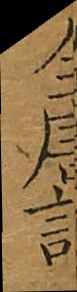全唐詩
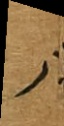八
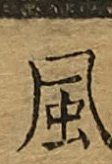風
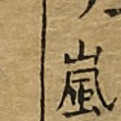嵐
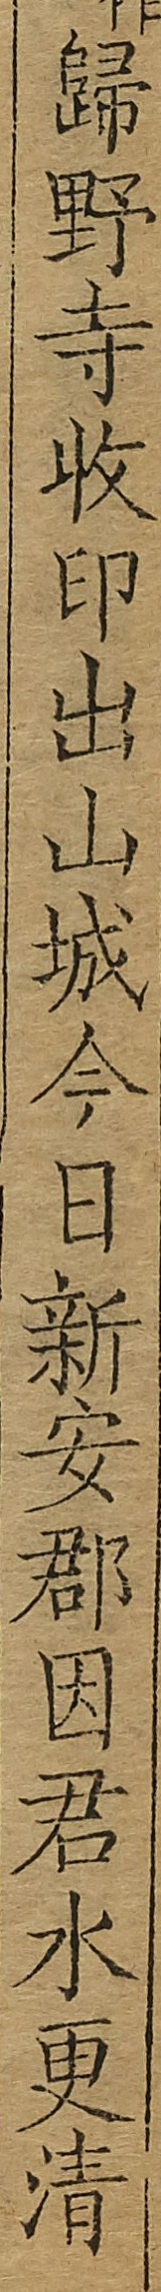歸野寺收印出山城今日新安郡因君水更清
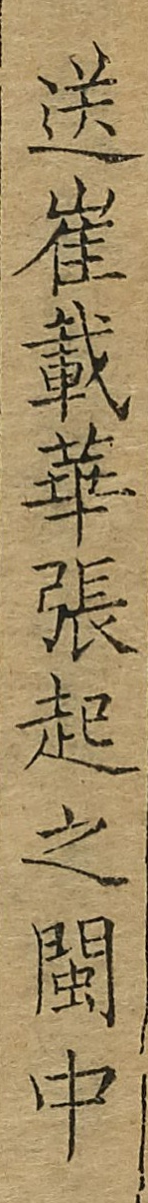送崔載華張起之閩中
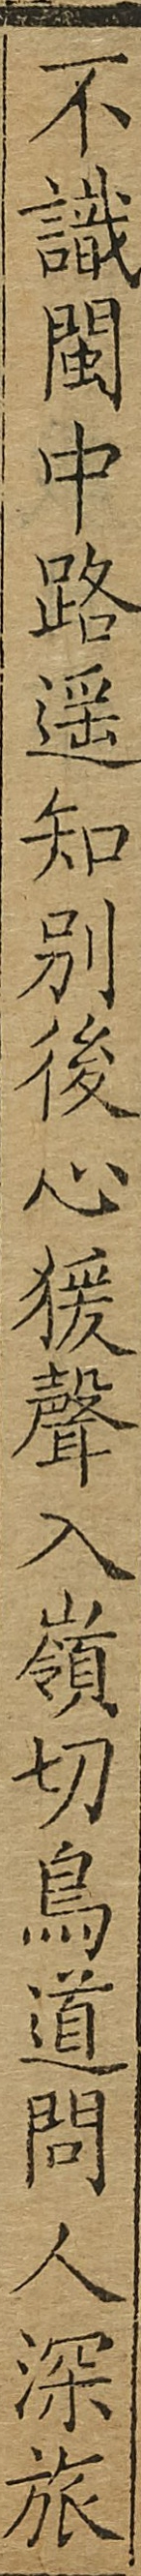不識閩中路遙知別後心猨聲入嶺切鳥道問人深旅
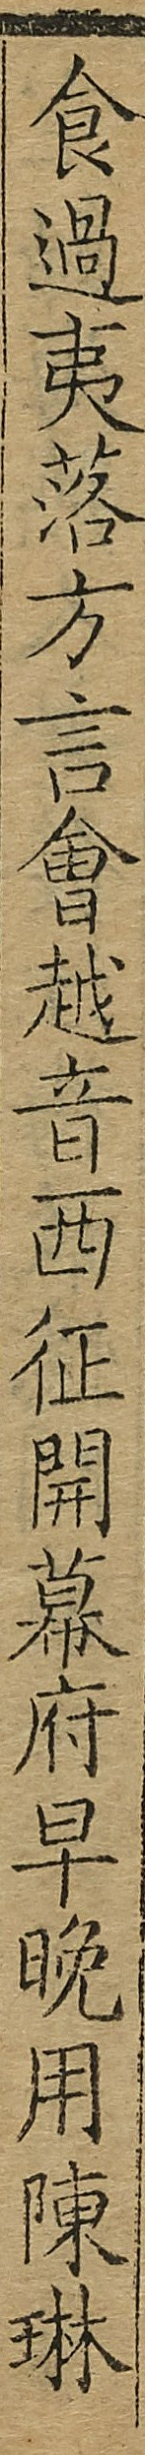食過夷落方言會越音西征開幕府早晚用陳琳
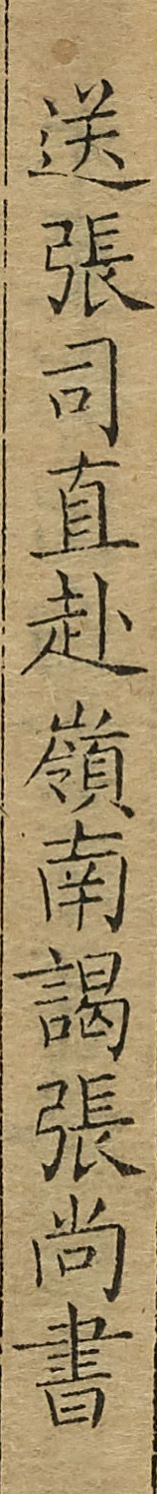送張司直赴嶺南謁張尚書
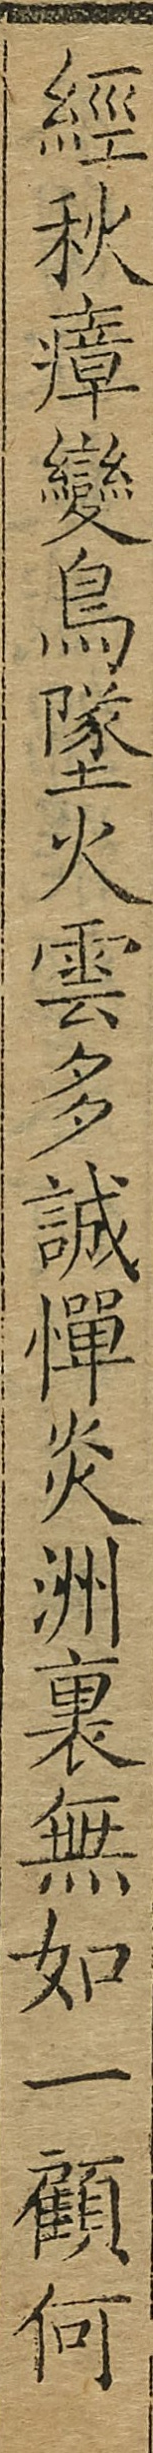經秋瘴變鳥墜火雲多誠憚炎洲裏無如一顧何
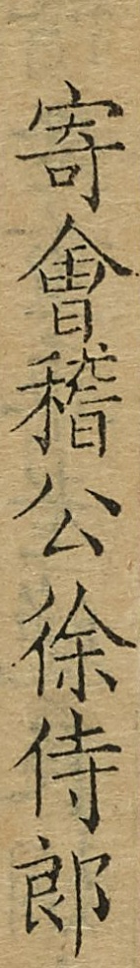寄會稽公徐侍郎
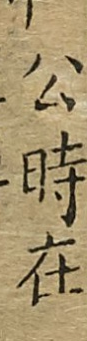公時在
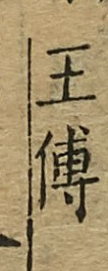王傅
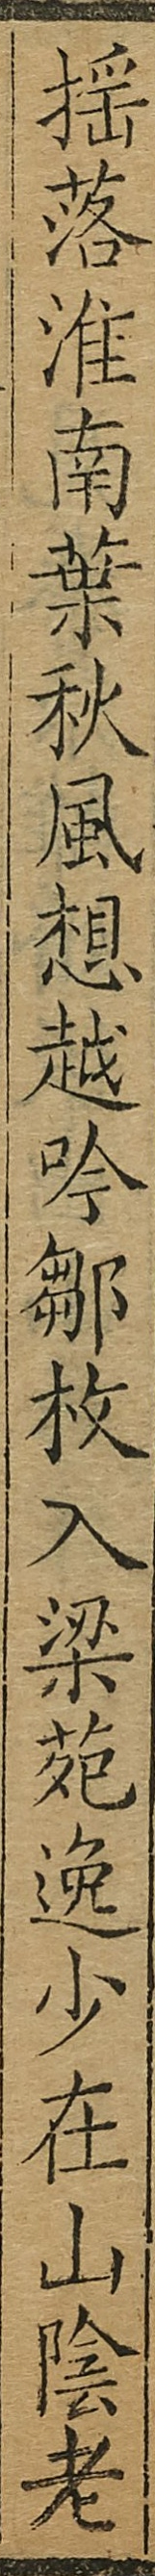搖落淮南葉秋風想越吟皺枚入梁苑逸少在山陰老
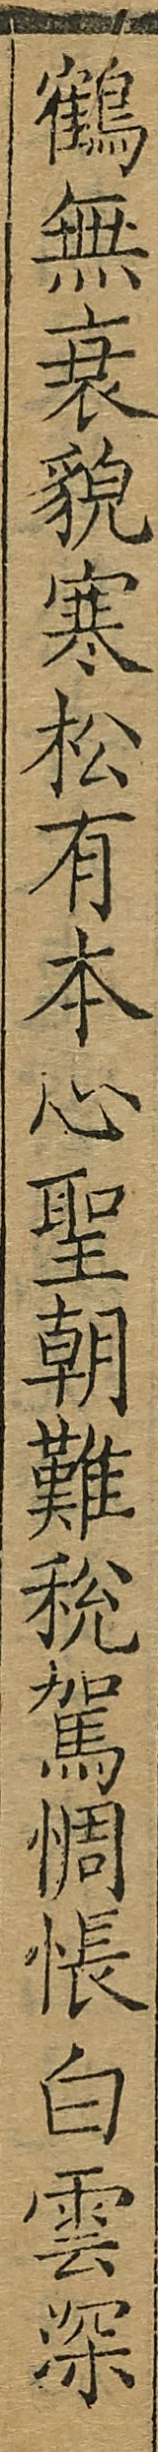鶴無衰貌寒松有本心聖朝難稅駕惆悵白雲深
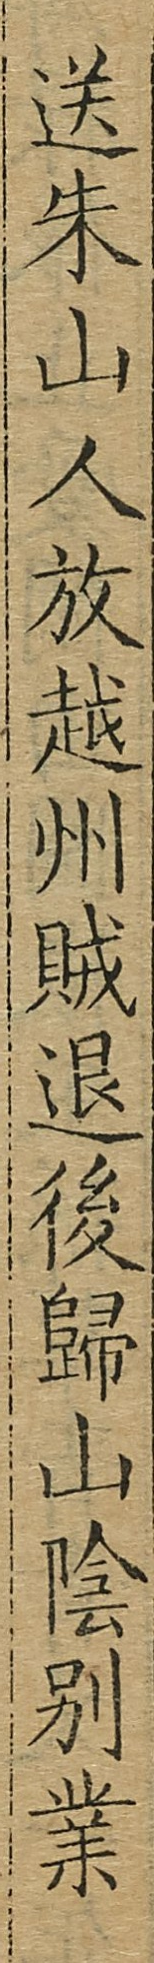送朱山人放越州賊退後歸山陰別業
